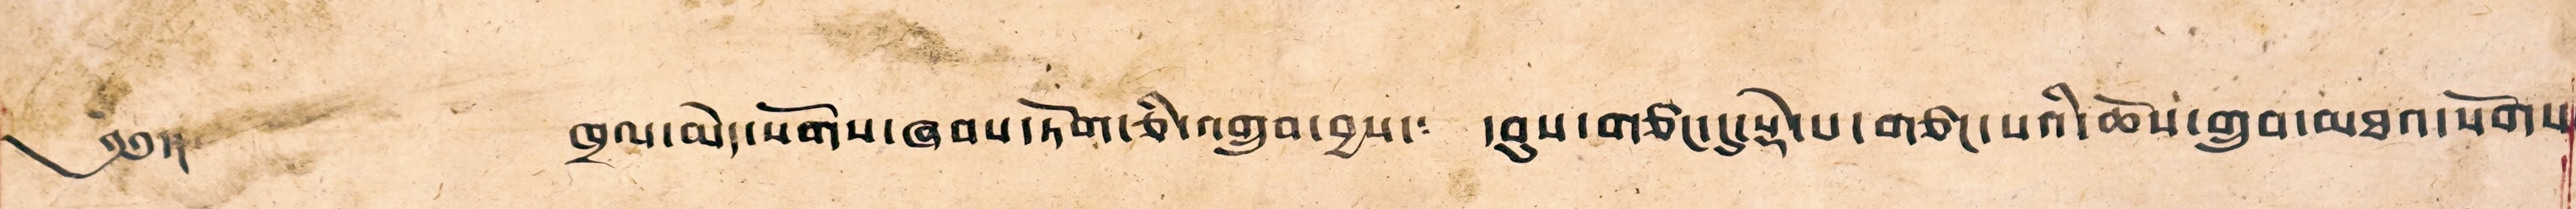༄༅།། ཁྲལ་མེད་སོགས་ཞབས་ཏོག་ཅི་འགྲུབ་བྱས་། དབུས་གཙང་དུ་སྡེ་པ་གཙང་པའི་ཆོས་གྲུབ་མཐའ་སོགས་
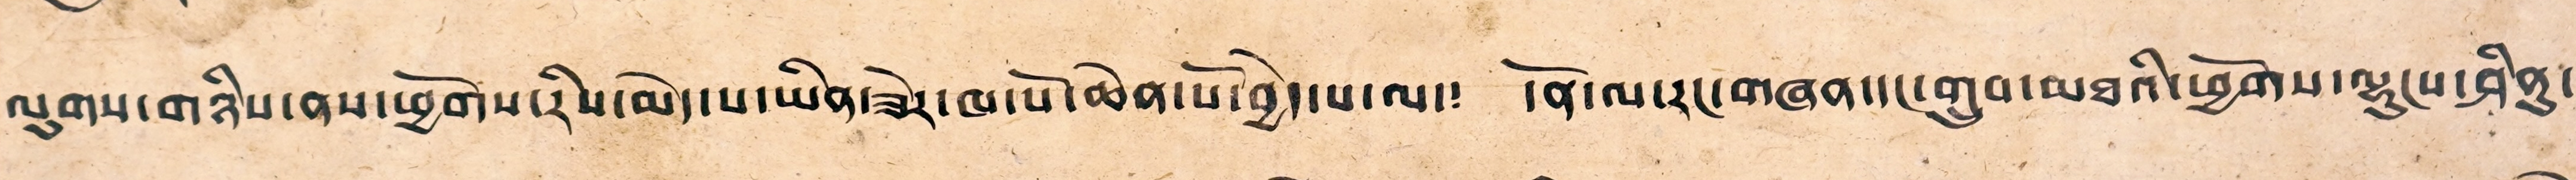ལུགས་གཉིས་ནས་ཕྱོགས་རིས་མེད་པ་ཡིན་ཟེར་ཁ་པོ་ཆེན་པོ་བྱེད་པ་ལ་། དོན་ལ་རང་གཞན་དང་གྲུབ་མཐའི་ཕྱོགས་ལྷུངས་ཤིནུ་
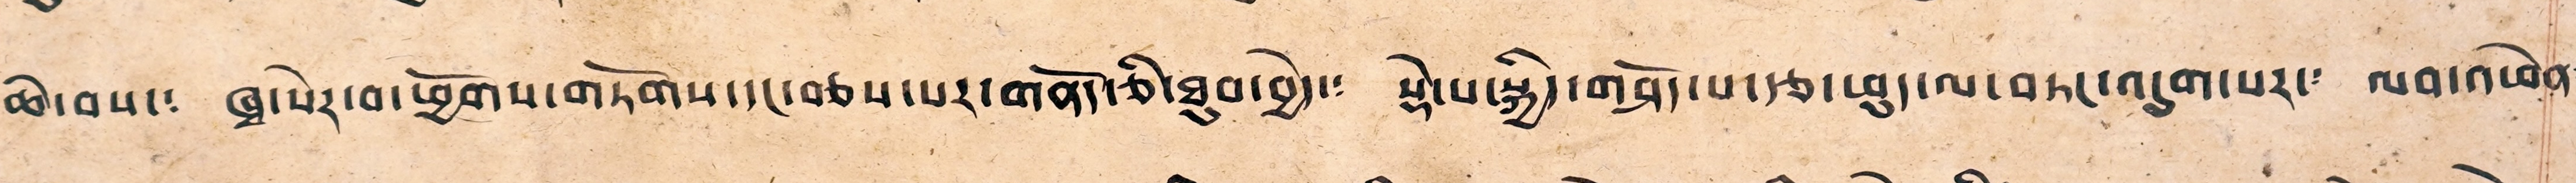ཆེ་བས་། ཞྭ་སེར་བ་ཕྱོགས་གཏོགས་དང་བཅས་པར་གནོད་ཅི་ཐུབ་བྱེད་། སྡེ་པ་སྐྱིད་གཤོད་པ་རྩ་ཕུད་ལ་བཏང་འདུག་པར་། ལབ་འཕེན་
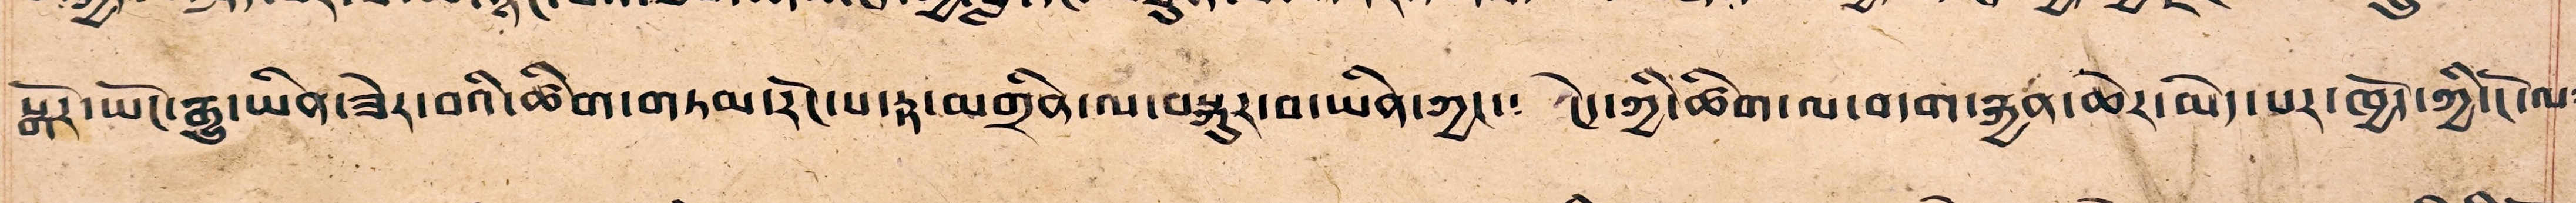སྒོར་ཡོང་རྒྱུ་ཡིན་ཟེར་བའི་ཚིག་གཏམ་རོང་པ་རྟ་མགྲིན་ལ་བསྐུར་བ་ཡིན་ཀྱང་། ངེད་ཀྱི་ཚིག་ལ་བདག་རྐྱན་ཆེར་མེད་པར་ཁྱོད་ཀྱི་ངོ་ལ་
